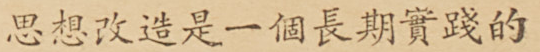思想改造是一個長期實踐的
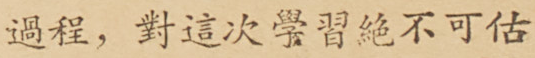過程，對這次學習絕不可估
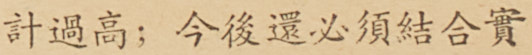計過高；今後還必須結合實
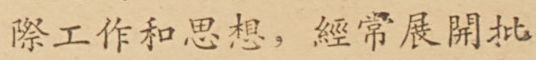際工作和思想，經常展開批
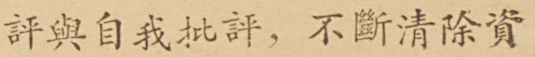評與自我批評，不斷清楚資
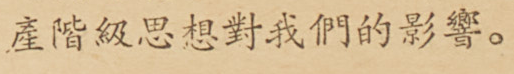產階級思想對我們的影響。
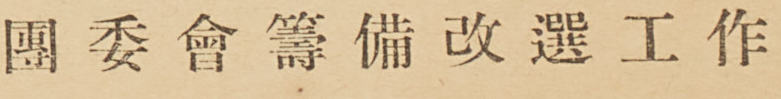團 委 會 籌 備 改 選 工 作
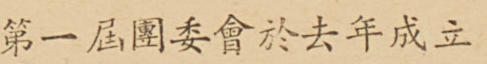第一屆團委會於去年成立
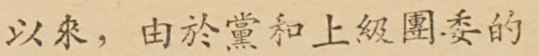以來，由於黨和上級團委的
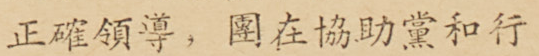正確領導，團在協助黨和行
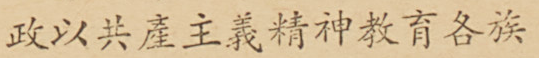政以共產主義精神教育各族
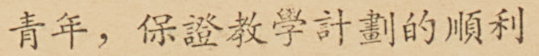青年，保證教學計劃的順利
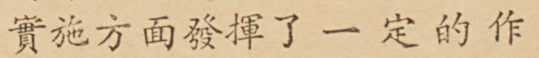實施方面發揮了一定的作
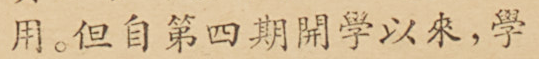用。但自第四期開學以來，學
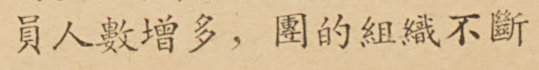員人數增多，團的組織不斷
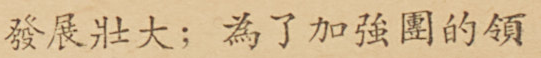發展壯大；為了加強團的領
